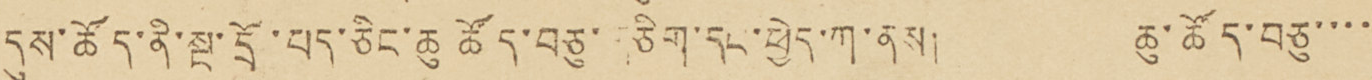དུས་ཚོད་ནི་སྔ་དྲོ་པད་ཅིང་ཆུ་ཚོད་བཅུ་གཅིག་དང་ཕྱེད་ཀ་ནས། ཆུ་ཚོད་བཅུ་་་་་
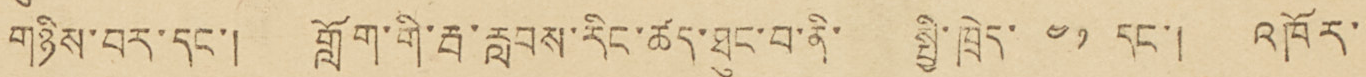གཉིས་བར་དང་། གློག་གི་རྦ་རླབས་རིང་ཚད་ཐུང་བ་ནི་ སྤྱི་ཁྲེད་ ༤༡ དང་། འཁོར་་་
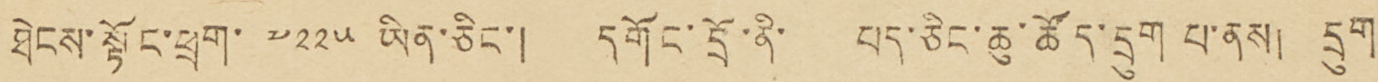ཐེངས་སྟོང་ཕྲག་ ༧༢༢༥ ཡིན་ཅིང་། དགོང་དྲོ་ནི་ པད་ཅིང་ཆུ་ཚོད་དྲུག་པ་ནས། དྲུག་
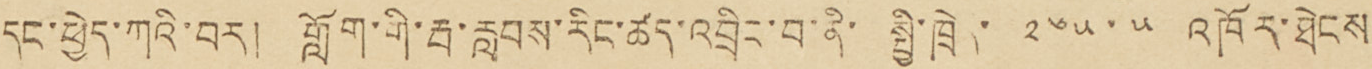དང་ཕྱེད་ཀའི་བར། གློག་གི་རྦ་རླབས་རིང་ཚད་འབྲིང་བ་ནི་ སྤྱི་ཁྲེ་ ༢༦༥་༥ འཁོར་ཐེངས་
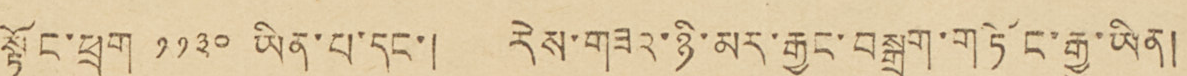སྟོང་ཕྲག་ ༡༡༣༠ ཡིན་པ་དང་། རེས་གཟའ་ཉི་མར་རྒྱང་བསྒྲག་གཏོང་རྒྱུ་ཡིན།
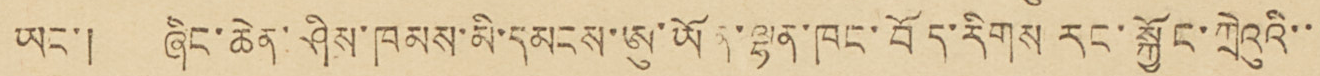ཡང་། ཞིང་ཆེན་ཤིས་ཁམས་མི་དམངས་ཨུ་ཡོན་ལྷན་ཁང་བོད་རིགས་རང་སྐྱོང་ཀྲེའུའི་་་
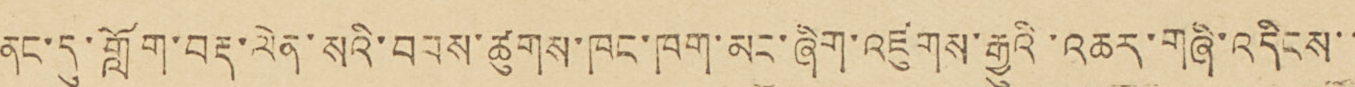ནང་དུ་གློག་བརྡ་ལེན་སའི་བབས་ཚུགས་ཁང་ཁག་མང་ཞིག་འཛུགས་རྒྱུའི་འཆར་གཞི་འདིངས་་་
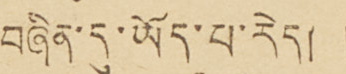བཞིན་དུ་ཡོད་པ་རེད། །
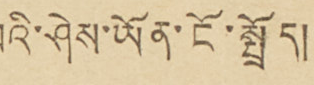རིགས་གསར་གྱི་ཐུན་མོང་བའི་ཤེས་ཡོན་ངོ་སྤྲོད།
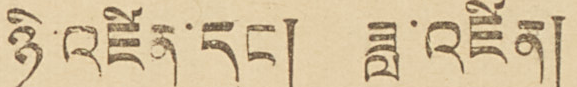ཉི་འཛིན་དང། ཟླ་འཛིན། སྐབས་འདིའི་ཐོག་མར་ཉི་འཛིན་ཟེར་བ་
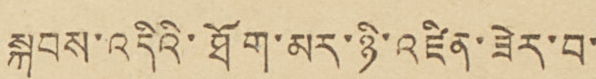ཉི་འཛིན་དང། ཟླ་འཛིན། སྐབས་འདིའི་ཐོག་མར་ཉི་འཛིན་ཟེར་བ་
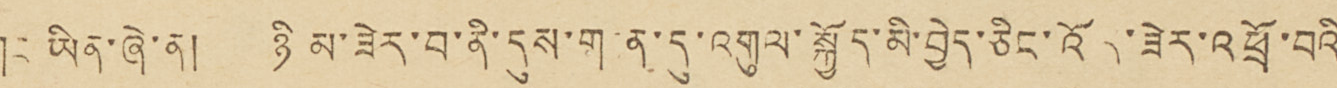གང་ཡིན་ཞེ་ན། ཉི མ་ཟེར་བ་ནི་དུས་གཏན་དུ་འགྲུལ་སྐྱོད་མི་བྱེད་ཅིང་འོད་ཟེར་འཕྲོ་བའི་
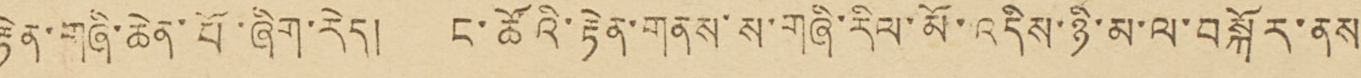རྟེན་གཞི་ཆེན་པོ་ཞིག་རེད། ང་ཚོའི་རྟེན་གནས་ས་གཞི་རིལ་མོ་འདིས་ཉི་མ་ལ་བསྐོར་ནས་
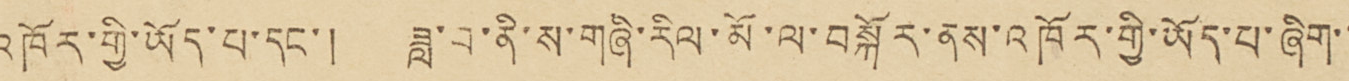འཁོར་གྱི་ཡོད་པ་དང་། ཟླ་བ་ནི་ས་གཞི་རིལ་མོ་ལ་བསྐོར་ནས་འཁོར་གྱི་ཡོད་པ་ཞིག་་་
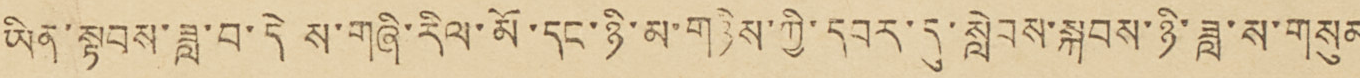ཡིན་སྟབས་ཟླ་བ་དེ་ས་གཞི་རིལ་མོ་དང་ཉི་མ་གཉིས་ཀྱི་དབར་དུ་སླེབས་སྐབས་ཉི་ཟླ་ས་གསུམ་
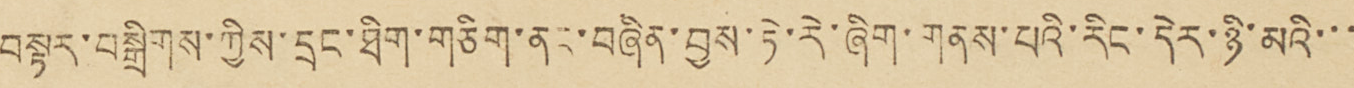བསྟར་བསྒྲིགས་ཀྱིས་དྲང་ཐིག་གཅིག་ནང་བཞིན་བྱས་ཏེ་རེ་ཞིག་གནས་པའི་རིང་དེར་ཉི་མའི་་་་
